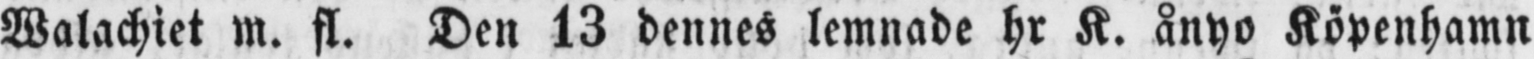Walachiet m. fl. Den 13 dennes lemnade hr K. ånyo Köpenhamn
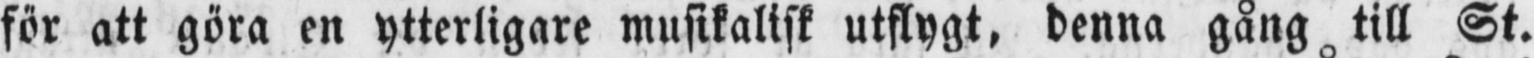för att göra en ytterligare musikalisk utflygt, denna gång till St.
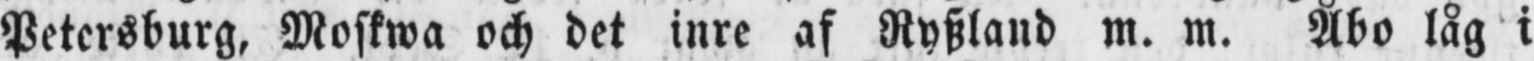Petersburg, Moskwa och det inre af Ryszland m. m. Åbo låg i
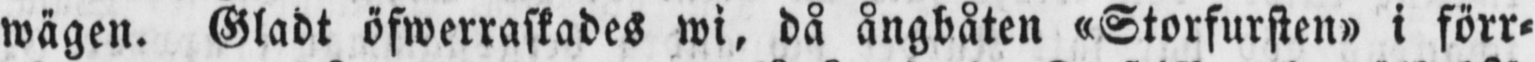wägen. Gladt öfwerraskades wi, då ångbåten »Storfursten» i förr-
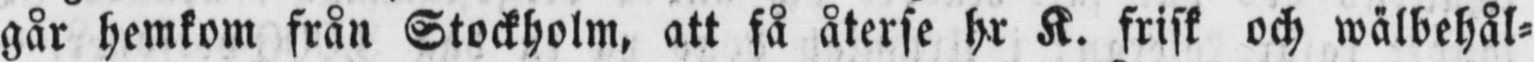går hemkom från Stockholm, att få återse hr K. frisk och wälbehål-
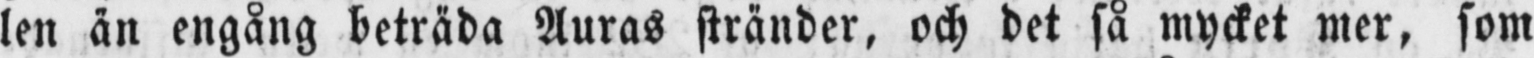len än engång beträda Auras stränder, och det så mycket mer, som
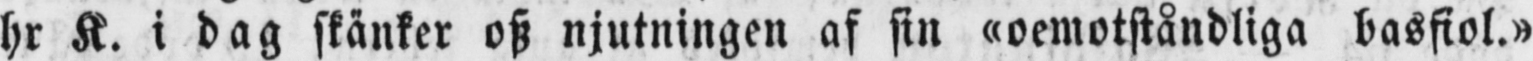hr K. i dag skänker osz njutningen af sin «oemotståndliga basfiol.»
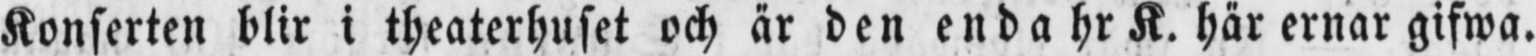Konserten blir i theaterhuset och är den enda hr K. här ernar gifwa.
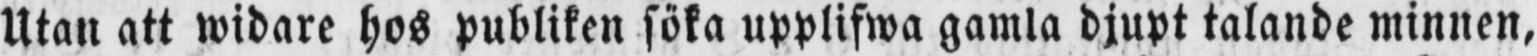Utan att widare hos publiken söka upplifwa gamla djupt talande minnen,
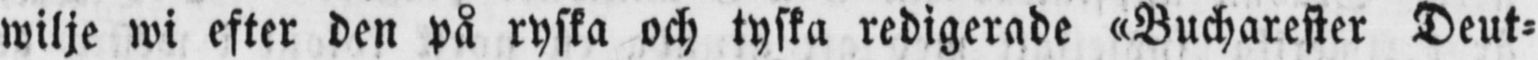wilje wi efter den på ryska och tyska redigerade «Bucharester Deut-
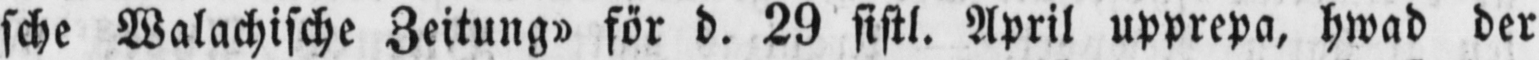sche Walachische Zeitung» för d. 29 sistl. April upprepa, hwad der
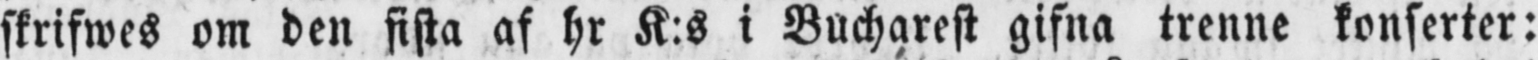skrifwes om den sista af hr K:s i Bucharest gifna trenne konserter:
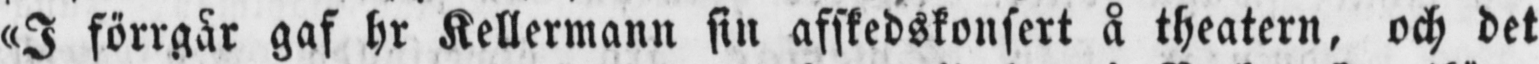«I förrgår gaf hr Kellermann sin afskedskonsert å theatern, och det
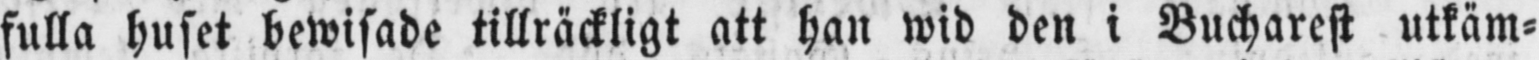fulla huset bewisade tillräckligt att han wid den i Bucharest utkäm-
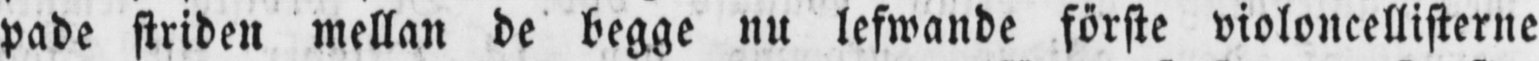pade striden mellan de begge nu lefwande förste violoncellisterne
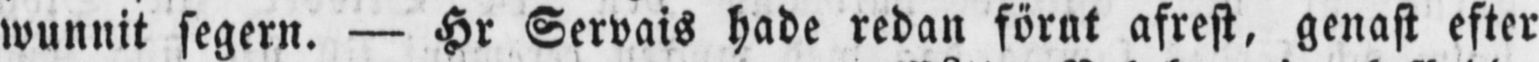wunnit segern. — Hr Servais hade redan förut afrest, genast efter
